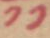༡༡
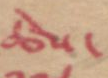ཚེས་
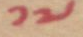༡༧
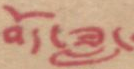བོད་ཟླ་
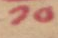༡༠
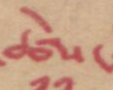ཚེས་
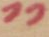༡༡
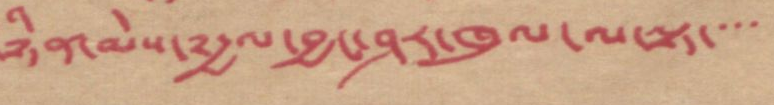ཉིན་མེས་༸རྒྱལ་བྱང་ཤར་ཁུལ་ལ་ལྟ་་་་
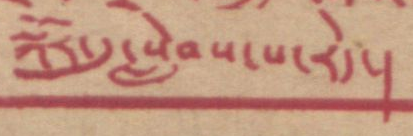སྐོར་དུ་སླེབས་པ་རེད།
